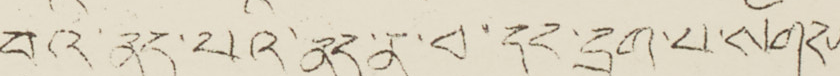བའི་ནད་པའི་ནད་ན་བ་དང་དྲག་པ་སག
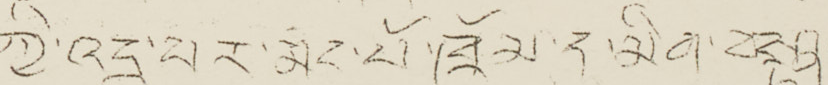ཀྱི་འདྲ་པར་མང་པོ་ཁྲོམ་དུ་མིན་བསྟན་
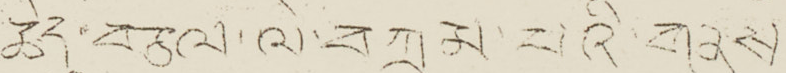ཆེདུ་བཙལ་ལེ་བཀྲམ་པའི་གནས་
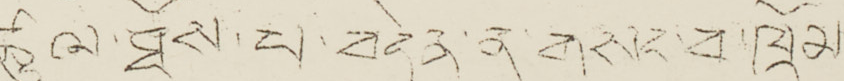ཚུལ་ཐོས་པ་བདེན་ན་གསང་བ་ཁྲོམ་
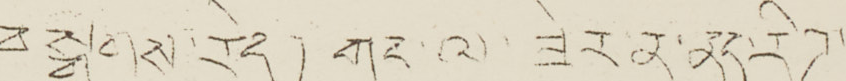བསྒྲགས་རེད། གང་ལ་ཟེར་ན་ནད་རིཌ་
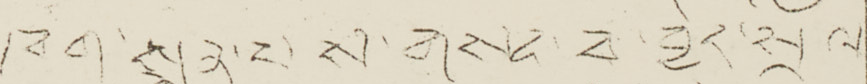ཁག་སྨན་པས་གསང་བ་བྱེད་སྲོལ་
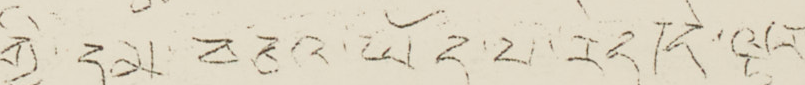གྱི་དམ་བཅའ་ཡོད་པ་རེད།དེ་ལྟར
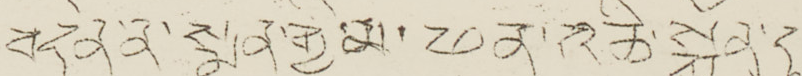བདེན་ན་སྨད་གྱི་མ་ཕན་འཆི་སྐྱོན་དུ
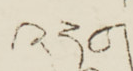བསྟན་དགོས་ཚོད་འདུག།།
